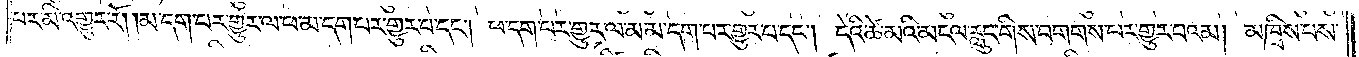པར་མི་འགྱུར་རོ། །མ་དག་པར་གྱུར་ལ་ཕ་མ་དག་པར་གྱུར་པ་དང༌། ཕ་དག་པར་གྱུར་ལམ་མ་དག་པར་གྱུར་པ་དང༌། དེའི་ཚེ་མའི་མངལ་རླུང་གིས་བགགས་པར་གྱུར་པའམ། མཁྲིས་པས་
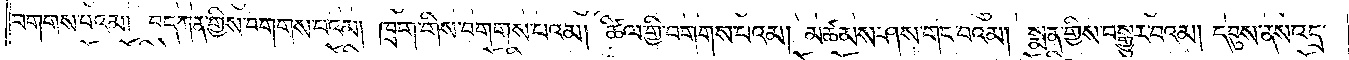བགགས་པའམ། བད་ཁན་གྱིས་བགགས་པའམ། ཁྲག་གིས་བགས་པའམ། ཚིལ་གྱི་བགས་པའམ། མཚམས་ཤས་གང་བའམ། སྨན་གྱིས་བསྒྱུར་བའམ། དབུས་ནས་འདྲ་
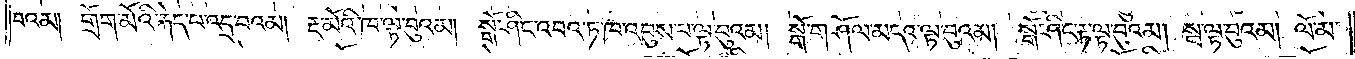བའམ། གྲོག་མོའི་རྐེད་པ་འདྲ་བའམ། རྔ་མོའི་ཁ་ལྟ་བུའམ། སྒོ་ཤིང་འབའ་ཏ་ཁ་འབུས་པ་ལྟ་བུའམ། སྒོ་གཤོལ་མདའ་ལྟ་བུའམ། སྒོ་ཤིང་རྟ་ལྟ་བུའམ། སྦ་ལྟ་བུའམ། ལོ་མ་
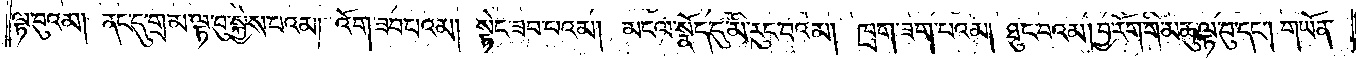ལྟ་བུའམ། ནང་དུ་གྲ་མ་ལྟ་བུ་སྐྱེས་པའམ། འོག་ཟབ་པའམ། སྟེང་ཟབ་པའམ། མངལ་སྣོད་དུ་མི་རུང་བའམ། ཁྲག་ཟག་པའམ། ཐུང་བའམ། བྱ་རོག་གི་མཆུ་ལྟ་བུ་དང༌། གཡོན་
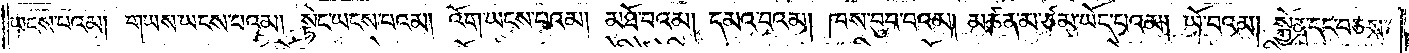ཡངས་པའམ། གཡས་ཡངས་པའམ། སྟེང་ཡངས་པའམ། འོག་ཡངས་པའམ། མཐོ་བའམ། དམའ་བའམ། ཁས་བུབ་པའམ། མཚན་མ་ཙམ་ཡོད་པའམ། ཡོ་བའམ། སྐྱོན་དང་བཅས་
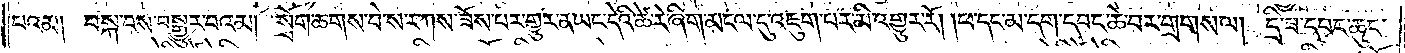པའམ། བསྐ་བས་བསྒྱུར་བའམ། སྲོག་ཆགས་བེ་ས་ར་ཀས་ཟོས་པར་གྱུར་ན་ཡང་དེའི་ཚེ་རེ་ཞིག་མངལ་དུ་འཇུག་པར་མི་འགྱུར་རོ། །ཕ་དང་མ་དག་དབང་ཆེ་བར་གྲགས་ལ། དྲི་ཟ་དབང་ཆུང་
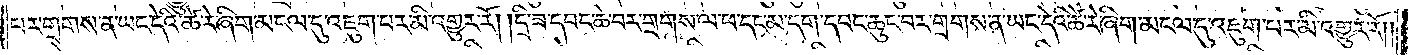པར་གྲགས་ན་ཡང་དེའི་ཚེ་རེ་ཞིག་མངལ་དུ་འཇུག་པར་མི་འགྱུར་རོ། །དྲི་ཟ་དབང་ཆེ་བར་གྲགས་ལ་ཕ་དང་མ་དག་དབང་ཆུང་བར་གྲགས་ན་ཡང་དེའི་ཚེ་རེ་ཞིག་མངལ་དུ་འཇུག་པར་མི་འགྱུར་རོ༎
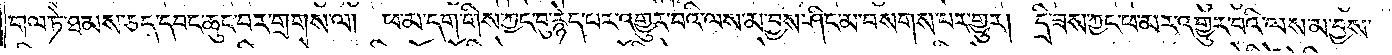གལ་ཏེ་ཐམས་ཅད་དབང་ཆུང་བར་གྲགས་ལ། ཕ་མ་དག་གིས་ཀྱང་བུ་རྙེད་པར་འགྱུར་བའི་ལས་མ་བྱས་ཤིང་མ་བསགས་པར་གྱུར། དྲི་ཟས་ཀྱང་ཕ་མར་འགྱུར་བའི་ལས་མ་བྱས་
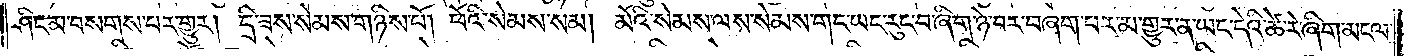ཤིང་མ་བསགས་པར་གྱུར། དྲི་ཟས་སེམས་གཉིས་པོ། ཕོའི་སེམས་སམ། མེའི་སེམས་ལས་སེམས་གང་ཡང་རུང་བ་ཞིག་ཉེ་བར་བཞག་པར་མ་གྱུར་ན་ཡང་དེའི་ཚེ་རེ་ཞིག་མངལ་
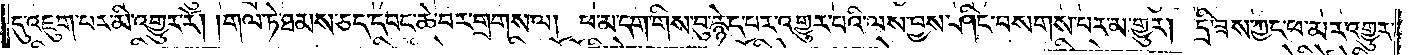དུ་འཇུག་པར་མི་འགྱུར་རོ། །གལ་ཏེ་ཐམས་ཅད་དབང་ཆེ་བར་གྲགས་ལ། ཕ་མ་དག་གིས་བུ་རྙེད་པར་འགྱུར་བའི་ལས་བྱས་ཤིང་བསགས་པར་མ་གྱུར། དྲི་ཟས་ཀྱང་ཕ་མར་འགྱུར་
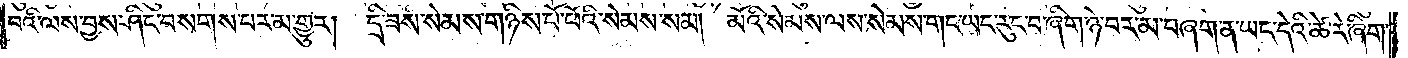བའི་ལས་བྱས་ཤིང་བསགས་པར་མ་གྱུར། དྲི་ཟས་སེམས་གཉིས་པོ་ཕོའི་སེམས་སམ། མོའི་སེམས་ལས་སེམས་གང་ཡང་རུང་བ་ཞིག་ཉེ་བར་མ་བཞག་ན་ཡང་དེའི་ཚེ་རེ་ཞིག་
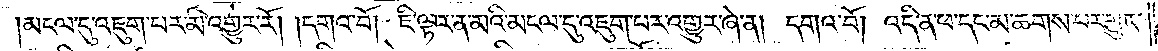མངལ་དུ་འཇུག་པར་མི་འགྱུར་རོ། །དགའ་བོ། ཇི་ལྟར་ན་མའི་མངལ་དུ་འཇུག་པར་འགྱུར་ཞེ་ན། དགའ་བོ། འདི་ན་ཕ་དང་མ་ཆགས་པར་གྱུར་
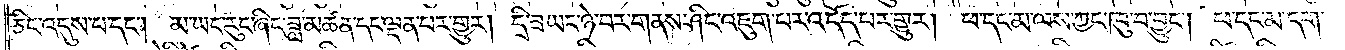ཅིང་འདུས་པ་དང༌། མ་ཡང་རུང་ཞིང་ཟླ་མཚན་དང་ལྡན་པར་གྱུར། དྲི་ཟ་ཡང་ཉེ་བར་གནས་ཤིང་འཇུག་པར་འདོད་པར་གྱུར། ཕ་དང་མ་ལས་ཀྱང་ཁུ་བ་བྱུང༌། ཕ་དང་མ་དག་
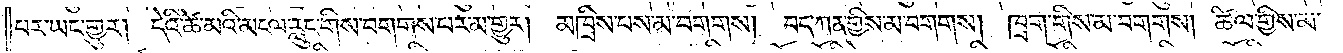པར་ཡང་གྱུར། དེའི་ཚེ་མའི་མངལ་རླུང་གིས་བགགས་པར་མ་གྱུར། མཁྲིས་པས་མ་བགགས། བད་ཀན་གྱིས་མ་བགགས། ཁྲག་གིས་མ་བགགས། ཚིལ་གྱིས་མ་
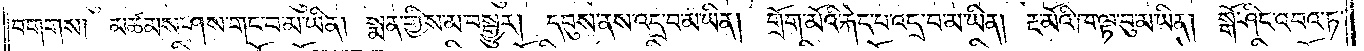བགགས། མཚམས་ཤས་གང་བ་མ་ཡིན། སྨན་གྱིས་མ་བསྒྱུར། དབུས་ནས་འདྲ་བ་མ་ཡིན། གྲོག་མོའི་རྐེད་པ་འདྲ་བ་མ་ཡིན། རྔ་མོའི་ཁ་ལྟ་བུ་མ་ཡིན། སྒོ་ཤིང་འབའ་ཏ་
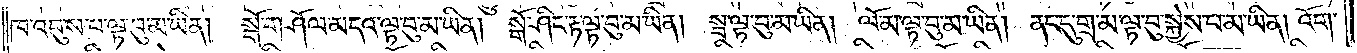ཁ་འབུས་པ་ལྟ་བུ་མ་ཡིན། སྒོ་གཤོལ་མདའ་ལྟ་བུ་མ་ཡིན། སྒོ་ཤིང་མདའ་ལྟ་བུ་མ་ཡིན། སྦ་ལྟ་བུ་མ་ཡིན། ལོ་མ་ལྟ་བུ་མ་ཡིན། ནང་དུ་གྲ་མ་ལྟ་བུ་སྐྱེས་པ་མ་ཡིན། འོག་
